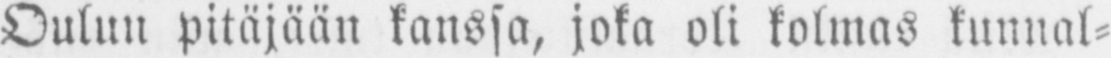Oulun pitäjään kanssa, joka oli kolmas kunnal-
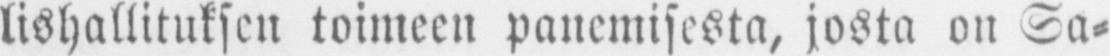lishallituksen toimeen panemisesta, josta on Sa-
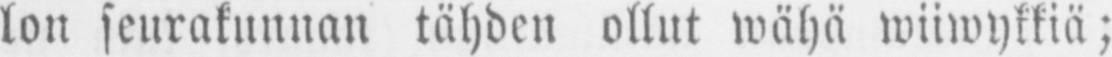lon seurakunnan tähden ollut wähä wiiwykkiä;
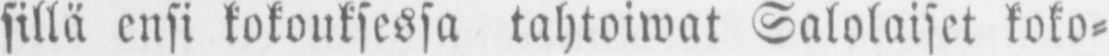sillä ensi kokouksessa tahtoiwat Salolaiset koko-
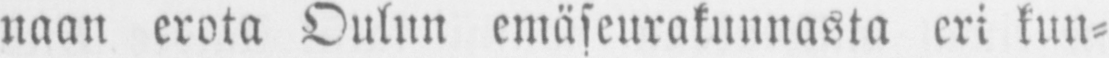naan erota Oulun emäseurakunnasta eri kun-
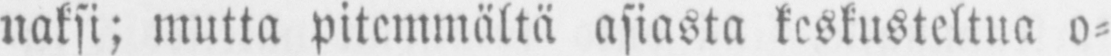naksi; mutta pitemmältä asiasta keskusteltua o-
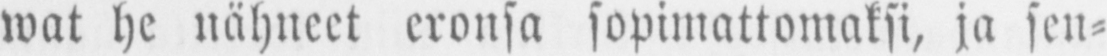wat he nähneet eronsa sopimattomaksi, ja sen-
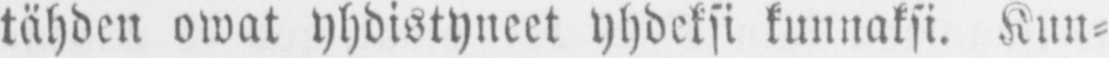tähden owat yhdistyneet yhdeksi kunnaksi. Kun-
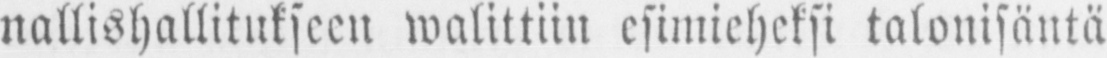nallishallitukseen walittiin esimieheksi talonisäntä
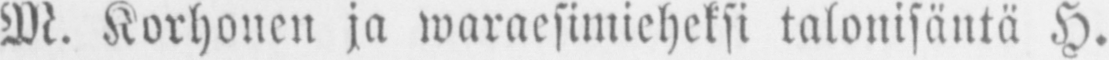M. Korhonen ja waraesimieheksi talonisäntä H.
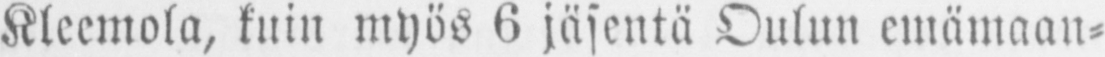Kleemola, kuin myös 6 jäsentä Oulun emämaan-
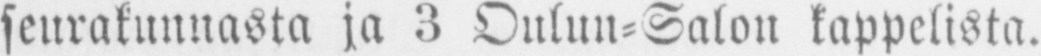seurakunnasta ja 3 Oulun-Salon kappelista.
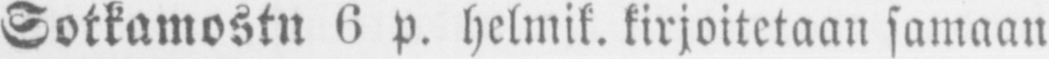Sotkamostn 6 p. helmik. kirjoitetaan samaan
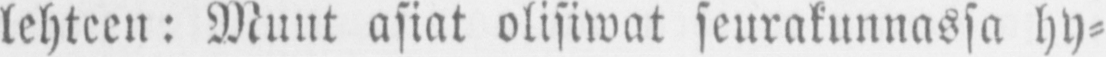lehteen: Muut asiat olisiwat seurakunnassa hy-
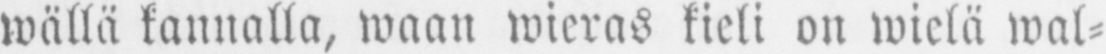wällä kannalla, waan wieras kieli on wielä wal-
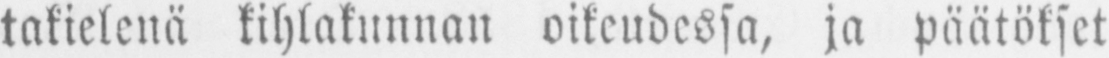takielenä kihlakunnan oikeudessa, ja päätökset
